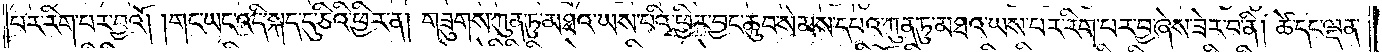པར་རིག་པར་བྱའོ། །གང་ཡང་འདི་སྐད་དུ་ཅིའི་ཕྱིར་ན། གཟུགས་ཀུན་ཏུ་མཐའ་ཡས་པའི་ཕྱིར་བྱང་ཆུབ་སེམས་དཔའ་ཀུན་ཏུ་མཐའ་ཡས་པར་རིག་པར་བྱ་ཞེས་ཟེར་བ་ནི། ཚེ་དང་ལྡན་
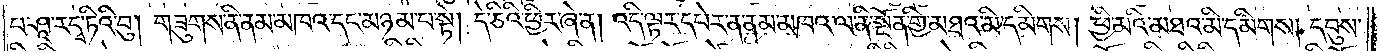པ་ཤཱ་ར་དྭ་ཏིའི་བུ། གཟུགས་ནི་ནམ་མཁའ་དང་མཉམ་པ་སྟེ། དེ་ཅིའི་ཕྱིར་ཞེ་ན། འདི་ལྟར་དཔེར་ན་ནམ་མཁའ་ལ་ནི་སྔོན་གྱི་མཐའ་མི་དམིགས། ཕྱི་མའི་མཐའ་མི་དམིགས། དབུས་
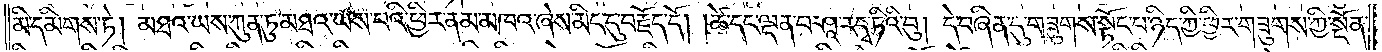མི་དམིགས་ཏེ། མཐའ་ཡས་ཀུན་ཏུ་མཐའ་ཡས་པའི་ཕྱིར་ནམ་མཁའ་ཞེས་མིང་དུ་བརྗོད་དོ། །ཚེ་དང་ལྡན་པ་ཤཱ་ར་དྭ་ཏིའི་བུ། དེ་བཞིན་དུ་གཟུགས་སྟོང་པ་ཉིད་ཀྱི་ཕྱིར་གཟུགས་ཀྱི་སྔོན་
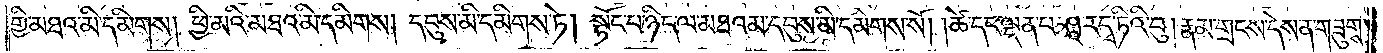གྱི་མཐའ་མི་དམིགས། ཕྱི་མའི་མཐའ་མི་དམིགས། དབུས་མི་དམིགས་ཏེ། སྟོང་པ་ཉིད་ལ་མཐའམ་དབུས་མི་དམིགས་སོ། །ཚེ་དང་ལྡན་པ་ཤཱ་ར་དྭ་ཏིའི་བུ། རྣམ་གྲངས་དེས་ན་གཟུགས་
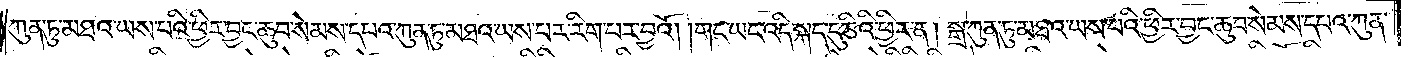ཀུན་ཏུ་མཐའ་ཡས་པའི་ཕྱིར་བྱང་ཆུབ་སེམས་དཔའ་ཀུན་ཏུ་མཐའ་ཡས་པར་རིག་པར་བྱའོ། །གང་ཡང་འདི་སྐད་དུ་ཅིའི་ཕྱིར་ན། སྒྲ་ཀུན་ཏུ་མཐའ་ཡས་པའི་ཕྱིར་བྱང་ཆུབ་སེམས་དཔའ་ཀུན་
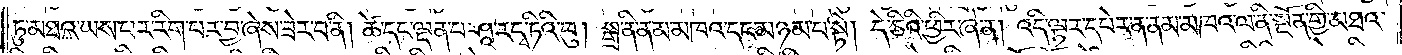ཏུ་མཐའ་ཡས་པར་རིག་པར་བྱ་ཞེས་ཟེར་བ་ནི། ཚེ་དང་ལྡན་པ་ཤཱ་ར་དྭ་ཏིའི་བུ། སྒྲ་ནི་ནམ་མཁའ་དང་མཉམ་པ་སྟེ། དེ་ཅིའི་ཕྱིར་ཞེ་ན། འདི་ལྟར་དཔེར་ན་ནམ་མཁའ་ལ་ནི་སྔོན་གྱི་མཐའ་
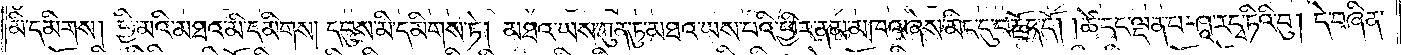མི་དམིགས། ཕྱི་མའི་མཐའ་མི་དམིགས། དབུས་མི་དམིགས་ཏེ། མཐའ་ཡས་ཀུན་ཏུ་མཐའ་ཡས་པའི་ཕྱིར་ནམ་མཁའ་ཞེས་མིང་དུ་བརྗོད་དོ། །ཚེ་དང་ལྡན་པ་ཤཱ་ར་དྭ་ཏིའི་བུ། དེ་བཞིན་
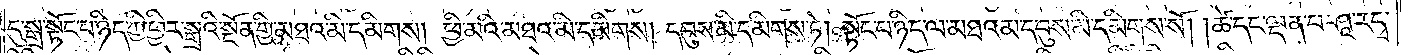དུ་སྒྲ་སྟོང་པ་ཉིད་ཀྱི་ཕྱིར་སྒྲའི་སྔོན་གྱི་མཐའ་མི་དམིགས། ཕྱི་མའི་མཐའ་མི་དམིགས། དབུས་མི་དམིགས་ཏེ། སྟོང་པ་ཉིད་ལ་མཐའམ་དབུས་མི་དམིགས་སོ། །ཚེ་དང་ལྡན་པ་ཤཱ་ར་དྭ་
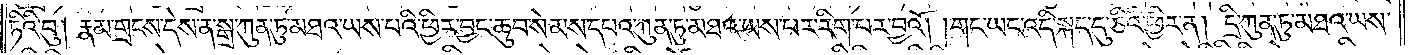ཏིའི་བུ། རྣམ་གྲངས་དེས་ན་སྒྲ་ཀུན་ཏུ་མཐའ་ཡས་པའི་ཕྱིར་བྱང་ཆུབ་སེམས་དཔའ་ཀུན་ཏུ་མཐའ་ཡས་པར་རིག་པར་བྱའོ། །གང་ཡང་འདི་སྐད་དུ་ཅིའི་ཕྱིར་ན། དྲི་ཀུན་ཏུ་མཐའ་ཡས་
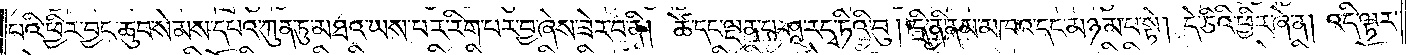པའི་ཕྱིར་བྱང་ཆུབ་སེམས་དཔའ་ཀུན་ཏུ་མཐའ་ཡས་པར་རིག་པར་བྱ་ཞེས་ཟེར་བ་ནི། ཚེ་དང་ལྡན་པ་ཤཱ་ར་དྭ་ཏིའི་བུ། དྲི་ནི་ནམ་མཁའ་དང་མཉམ་པ་སྟེ། དེ་ཅིའི་ཕྱིར་ཞེ་ན། འདི་ལྟར་
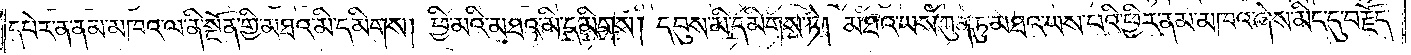དཔེར་ན་ནམ་མཁའ་ལ་ནི་སྔོན་གྱི་མཐའ་མི་དམིགས། ཕྱི་མའི་མཐའ་མི་དམིགས། དབུས་མི་དམིགས་ཏེ། མཐའ་ཡས་ཀུན་ཏུ་མཐའ་ཡས་པའི་ཕྱིར་ནམ་མཁའ་ཞེས་མིང་དུ་བརྗོད་
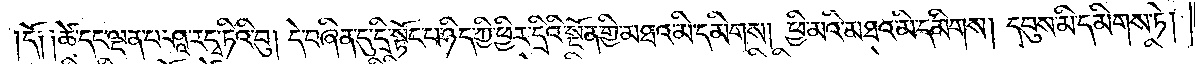དོ༑ ༑ཚེ་དང་ལྡན་པ་ཤཱ་ར་དྭ་ཏིའི་བུ། དེ་བཞིན་དུ་དྲི་སྟོང་པ་ཉིད་ཀྱི་ཕྱིར་དྲིའི་སྔོན་གྱི་མཐའ་མི་དམིགས། ཕྱི་མའི་མཐའ་མི་དམིགས། དབུས་མི་དམིགས་ཏེ།
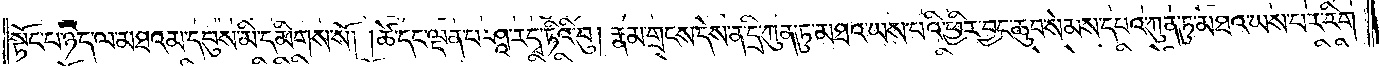སྟོང་པ་ཉིད་ལ་མཐའམ་དབུས་མི་དམིགས་སོ། །ཚེ་དང་ལྡན་པ་ཤཱ་ར་དྭ་ཏིའི་བུ། རྣམ་གྲངས་དེས་ན་དྲི་ཀུན་ཏུ་མཐའ་ཡས་པའི་ཕྱིར་བྱང་ཆུབ་སེམས་དཔའ་ཀུན་ཏུ་མཐའ་ཡས་པར་རིག་
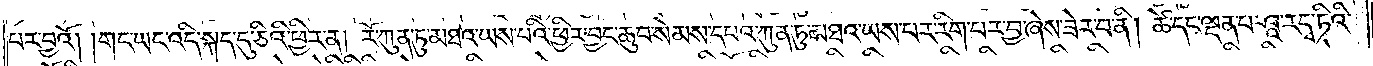པར་བྱའོ། །གང་ཡང་འདི་སྐད་དུ་ཅིའི་ཕྱིར་ན། རོ་ཀུན་ཏུ་མཐའ་ཡས་པའི་ཕྱིར་བྱང་ཆུབ་སེམས་དཔའ་ཀུན་ཏུ་མཐའ་ཡས་པར་རིག་པར་བྱ་ཞེས་ཟེར་བ་ནི། ཚེ་དང་ལྡན་པ་ཤཱ་ར་དྭ་ཏིའི་
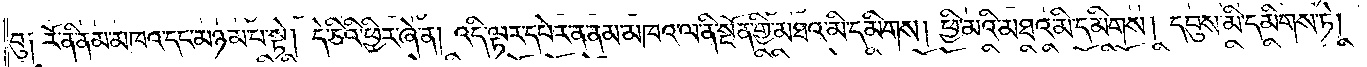བུ། རོ་ནི་ནམ་མཁའ་དང་མཉམ་པ་སྟེ། དེ་ཅིའི་ཕྱིར་ཞེ་ན། འདི་ལྟར་དཔེར་ན་ནམ་མཁའ་ལ་ནི་སྔོན་གྱི་མཐའ་མི་དམིགས། ཕྱི་མའི་མཐའ་མི་དམིགས། དབུས་མི་དམིགས་ཏེ།
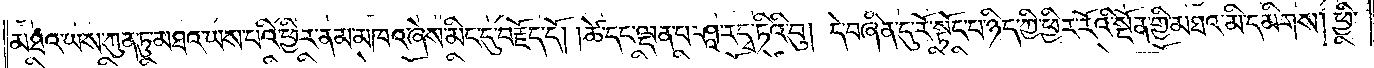མཐའ་ཡས་ཀུན་ཏུ་མཐའ་ཡས་པའི་ཕྱིར་ནམ་མཁའ་ཞེས་མིང་དུ་བརྗོད་དོ། །ཚེ་དང་ལྡན་པ་ཤཱ་ར་དྭ་ཏིའི་བུ། དེ་བཞིན་དུ་རོ་སྟོང་པ་ཉིད་ཀྱི་ཕྱིར་རོའི་སྔོན་གྱི་མཐའ་མི་དམིགས། ཕྱི་
